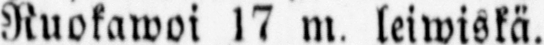Ruokawoi 17 m. leiwiskä.
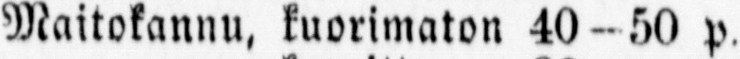Maitokannu, kuorimaton 40 - 50 p.
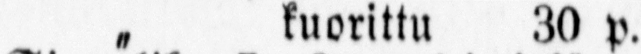„ kuorittu 30 p.
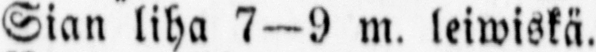Sian liha 7—9 m. leiwiskä.
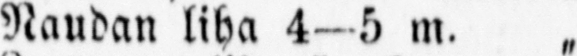Naudan liha 4-5 m. „
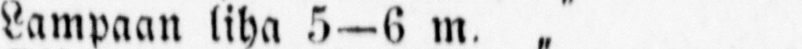Lampaan liha 5—6 m. „
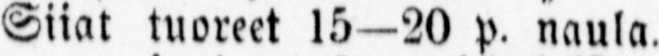Siiat tuoreet 15—20 p. naula.
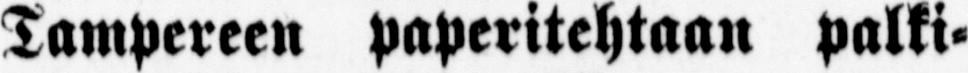Tampereen paperitehtaan palki-
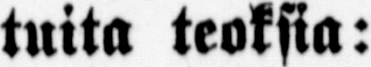tuita teoksia:
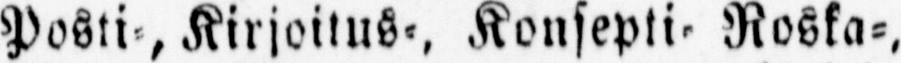Posti-, Kirjoitus- Konsepti- Roska-,
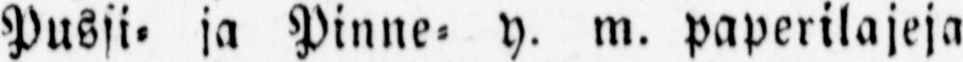Pussi- ja Pinne- y. m. paperilajeja
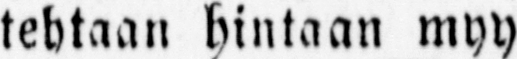tehtaan hintaan myy.
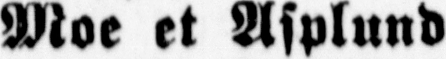Moe et Asplund.
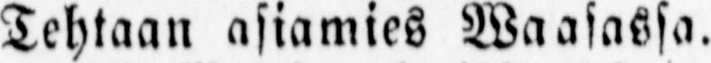Tehtaan asiamies Waasassa.
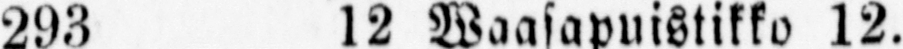293 12 Waasapuistikko 12.
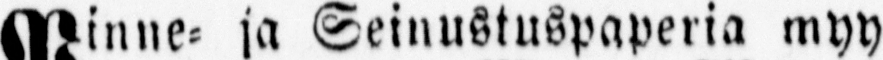Pinne- ja Seinustuspaperia myy
